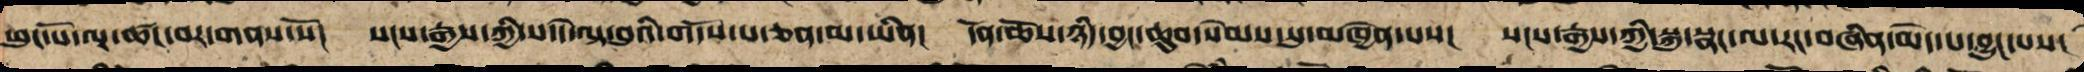ཕུང་པོ་ལྔ་ཚང་བར་གནས་སོ། སངས་རྒྱས་ཀྱིས་དེ་ལྟ་བུའི་གདོས་པ་ཅན་མ་ཡིན། དོན་ཆོས་ཉིད་བྱང་ཆུབ་སེམས་སུ་མཁྱེན་པས། སངས་རྒྱས་ཀྱི་སྐུ་སྣང་ལ་རང་བཞིན་མེད་པ་བྱུང་བས།
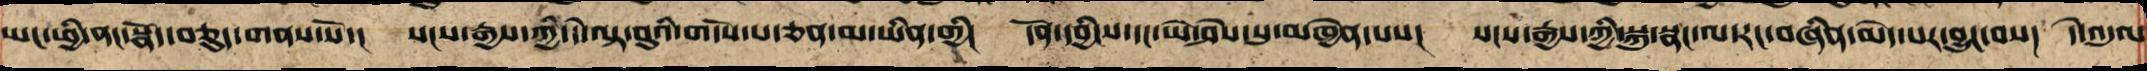ཡང་ཕྱི་ནང་སྣོད་བཅུད་གནས་སོ་། སངས་རྒྱས་ཀྱིས་དེ་ལྟ་བུའི་གདོས་པ་ཅན་མ་ཡིན་གྱི་། དོན་དབྱིངས་དང་ཡེ་ཤེས་སུ་མཁྱེན་པས་། སངས་རྒྱས་ཀྱི་སྐུ་སྣང་ལ་རང་བཞིན་མེད་པར་བྱུང་བས་། དེ་འདུལ
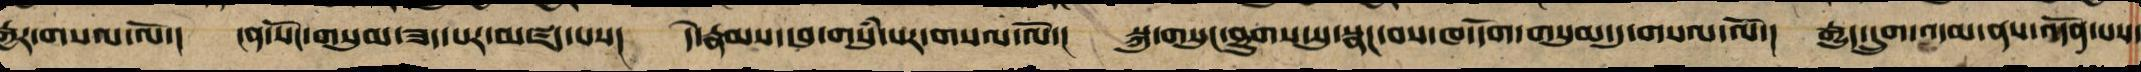རྒྱར་གསལ་ལོ་། ངན་སོང་གསུམ་ཟད་པར་མཛད་པས། དེ་རྣམས་དབུ་གསུཾ་པར་གསལ་ལོ། སྐུ་གསུང་ཐུགས་སུ་སྣང་བས་ཁ་དོག་གསུམ་དུ་གསལ་ལོ་། རྒྱུད་དྲུག་འདམ་ནས་འདོན་པས་
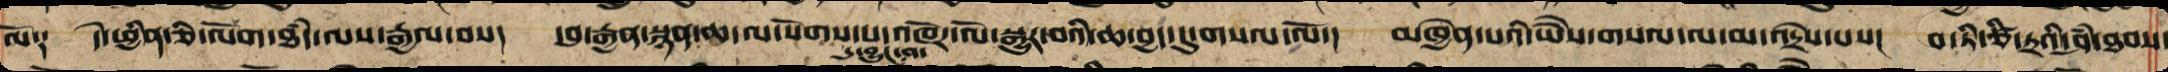ལོ༑ དེ་ཕྱིན་ཅི་ལོག་ཐཾད་ལས་རྒྱལ་བས། དབུ་རྒྱན་སྙན་ཆ་ལ་སོགས་པ་འཁོར་ལོས་སྒྱུར་བའི་ཆ་བྱད་དུ་གསལ་ལོ་། མཁྱེན་པའི་ཡཻས་གསལ་ལ་མ་འདྲེས་པས། བ་ཏིཙི་ཏྲའི་ཤཾ་ཐབས་
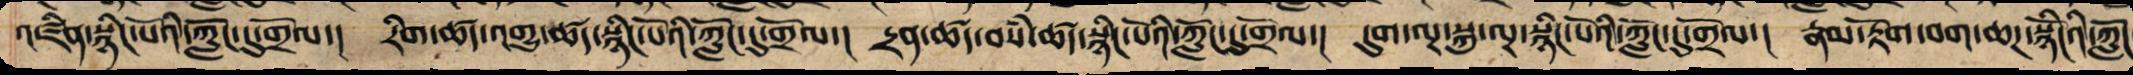འཛིན་སྙིང་པོའི་ཀློང་དུ་གྲོལ་། རིག་ཚད་འགྱུ་ཚད་སྙིང་པོའི་ཀློང་དུ་གྲོལ་། དྲན་ཚད་བསཾ་ཚད་སྙིང་པོའི་ཀློང་དུ་གྲོལ་། དུག་ལྔ་སྐུ་ལྔ་སྙིང་པོའི་ཀློང་དུ་གྲོལ་། རྣམ་རྟོག་བག་ཆཌ་སྙིངོའི་ཀློང
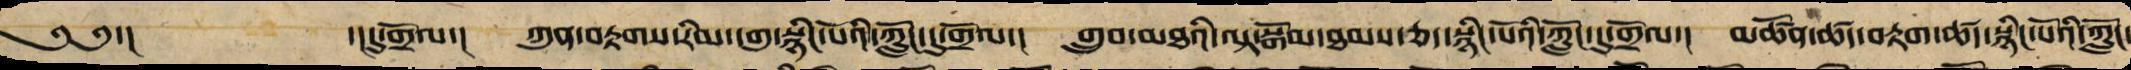༄༅་། ་།དུ་གྲོལ་། ཀུན་བཏགས་རིམ་དགུ་སྙིང་པོའི་ཀློང་དུ་གྲོལ་། གྲུབ་མཐའི་ལྟ་སྒོམ་ཐམས་ཅད་སྙིང་པོའི་ཀློང་དུ་གྲོལ་། མཚོན་ཚད་བཏགས་ཚད་སྙིང་པོའི་ཀློང་
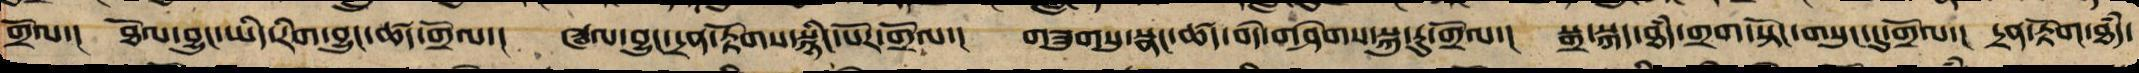གྲོལ་། ཐོལ་བྱུང་ཡིད་རིག་བྱུང་ཚད་གྲོལ་། ཝལ་བྱུང་དྲན་རྟོགས་སྙིང་པོར་གྲོལ་། གཟུགསུ་སྣང་ཚད་བདེ་གཤེགས་སྐུ་རུ་གྲོལ་། སྒྲ་སྐད་ཐཾད་གྲགས་སྟོང་གསུང་དུ་གྲོལ་། དྲན་རྟོག་ཐཾད་
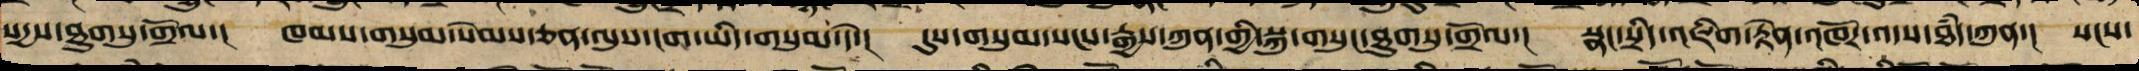སདྱས་ཐུགསུ་གྲོལ་། ཁམས་གསུམ་སེམས་ཅན་ལུས་ངག་ཡིད་གསུམ་དེ་། དུས་གསུམ་སངས་རྒྱས་ཀུན་གྱི་སྐུ་གསུང་ཐུགསུ་གྲོལ་། སྣང་སྲིད་འཇིག་རྟེན་འཁོར་འདས་ཐཾད་ཀུན་། སངས་
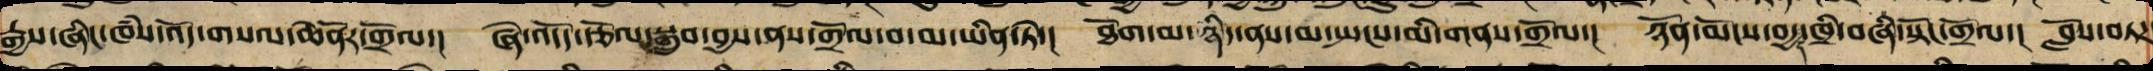རྒྱས་ཞིང་ཁཾས་འོད་གསལ་ཆེནོར་གྲོལ་། ཞེ་འདོད་རྩོལ་སྒྲུབ་བྱས་ནས་གྲོལ་བ་མ་ཡིན་ཏེ་། ཐོག་མ་ཉིད་ནས་མ་སྤངས་མི་གནས་གྲོལ་། ཉོན་མོངས་བདྱད་ཁྲི་བཞི་སྟོང་གྲོལ་། བློས་བཏཌ་
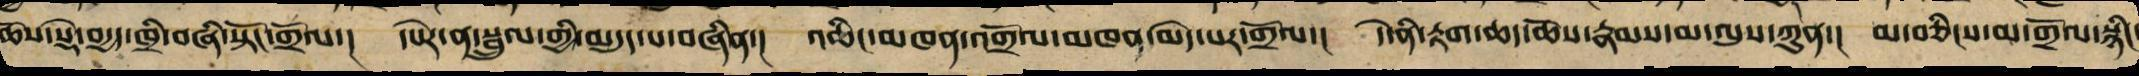ཆོས་སྡེ་བདྱད་ཁྲི་བཞི་སྟོང་གྲོལ་། དཔེར་ན་སྦྲུལ་གྱི་མདུད་པ་བཞིན་། འཆིང་མཁན་གྲོལ་མཁན་མེད་པར་གྲོལ་། དེ་ནི་རྟག་ཆད་ཆོས་རྣམས་མ་ལུས་ཀུན་། མ་བཅིངས་མ་གྲོལ་སྙིང་
